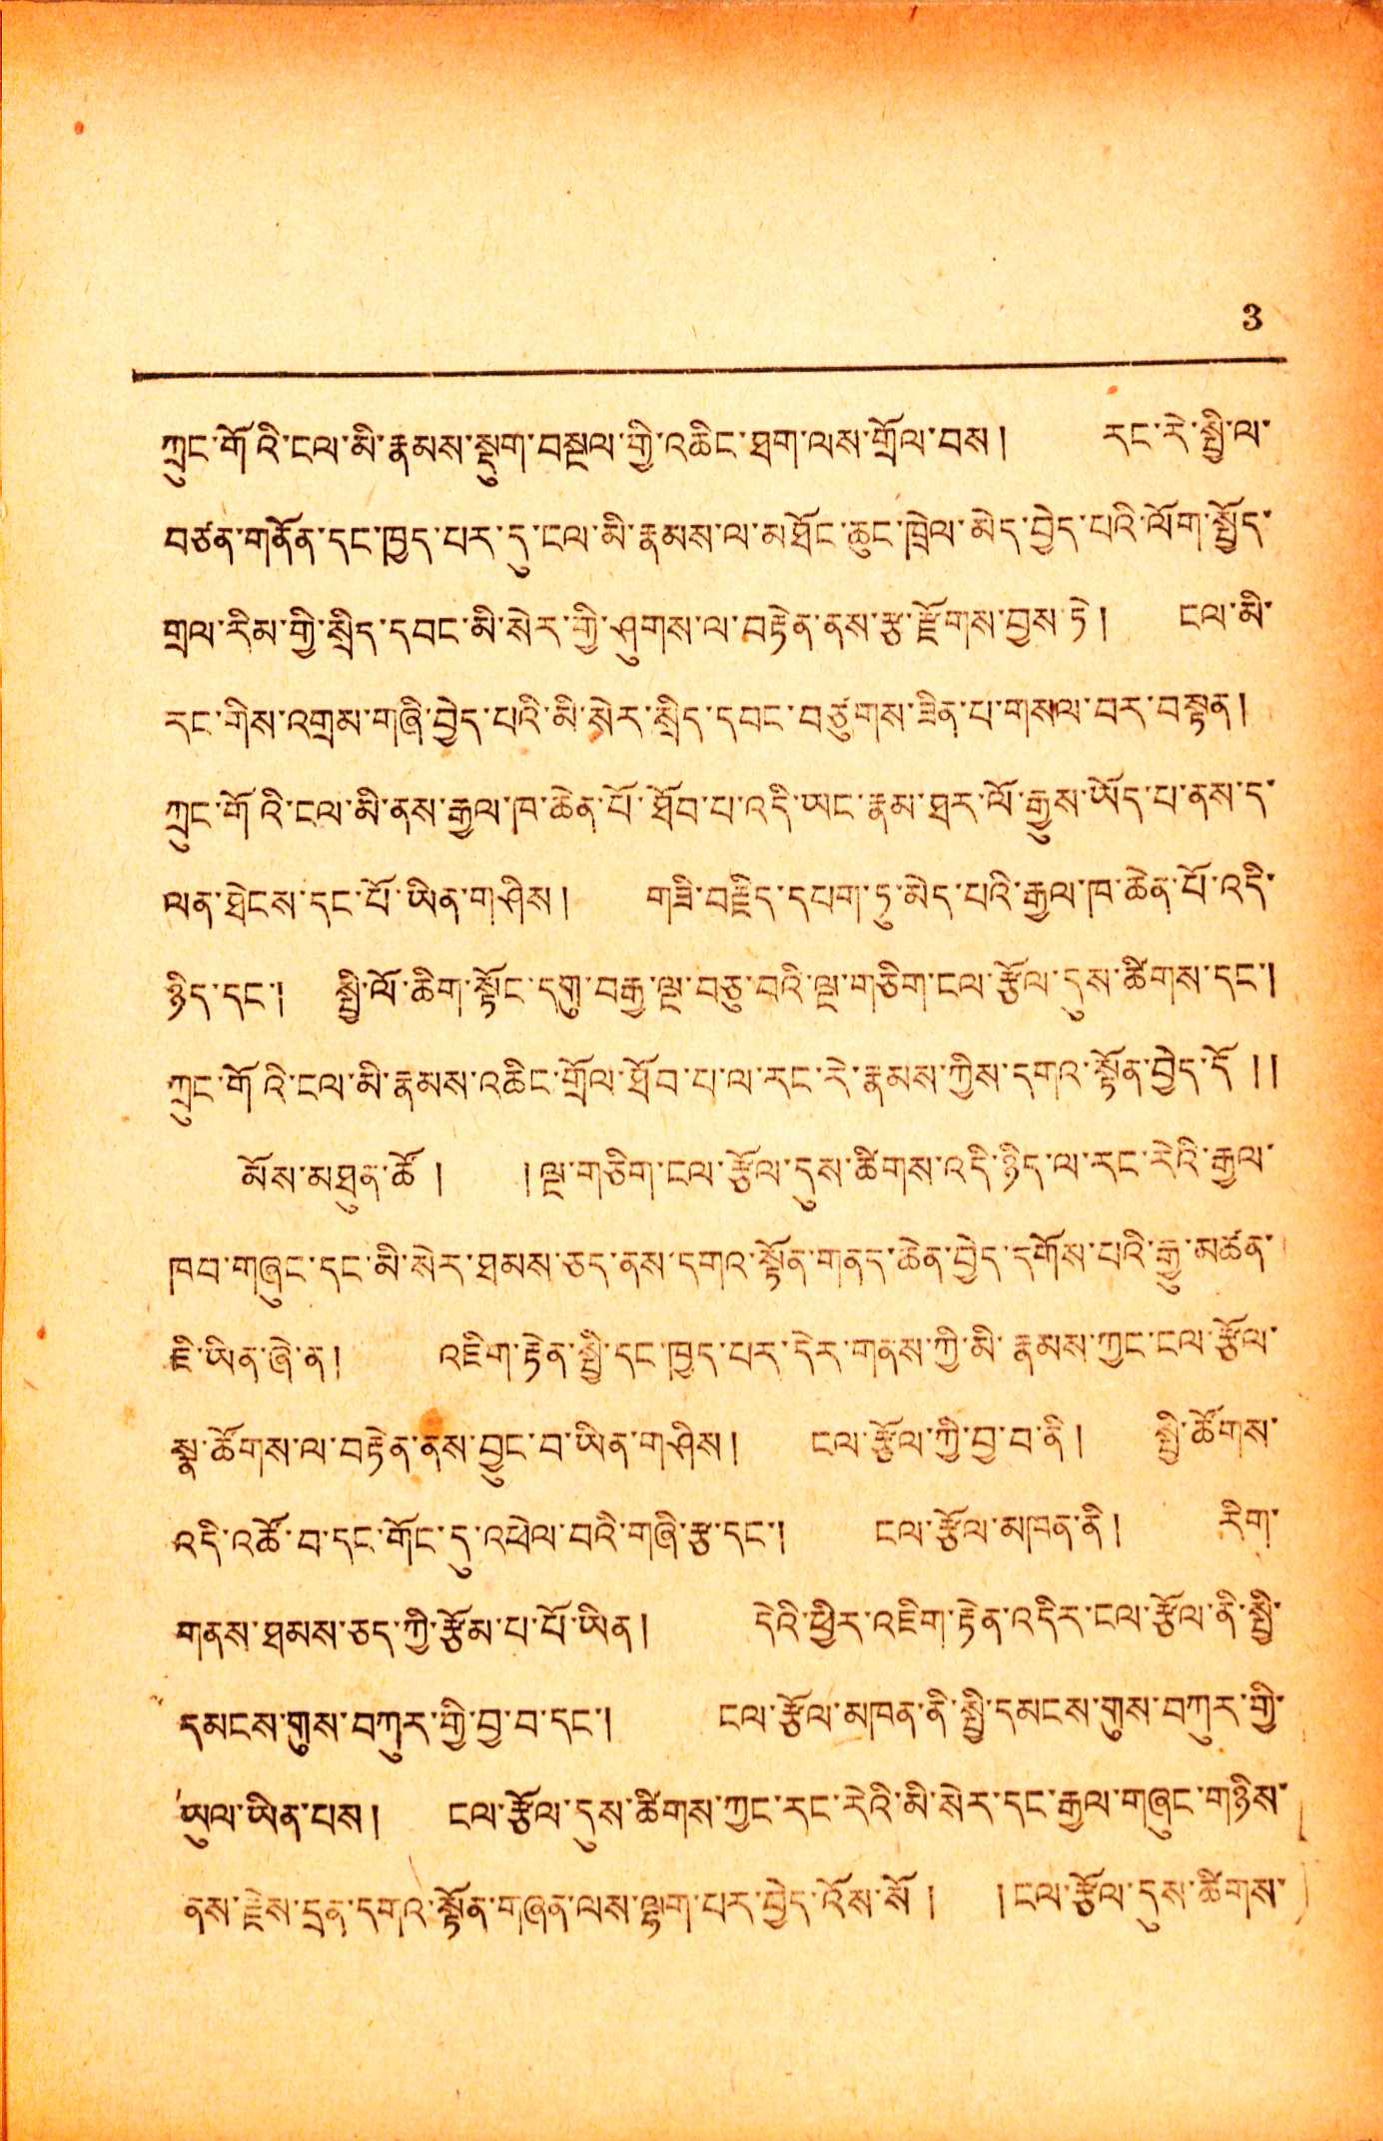3
ཀྲུང་གོའི་ངལ་མི་རྣམས་སྡུག་བསྔལ་གྱི་འཆིང་ཐག་ལས་གྲོལ་བས། རང་རེ་སྤྱི་ལ་
བཙན་གནོན་དང་ཁྱད་པར་དུ་ངལ་མི་རྣམས་ལ་མཐོང་ཆུང་ཁྲེལ་མེད་བྱེད་པའི་ལོག་སྤྱོད་
གྲལ་རིམ་གྱི་སྲིད་དབང་མི་སེར་གྱི་ཤུགས་ལ་བརྟེན་ནས་རྩ་རྫོགས་བྱས་ཏེ། ངལ་མི་
རང་གིས་འགྲམ་གཞི་བྱེད་པའི་མི་སེར་སྲིད་དབང་བཙུགས་ཟིན་པ་གསལ་བར་བསྟན།
ཀྲུང་གོའི་ངལ་མི་ནས་རྒྱལ་ཁ་ཆེན་པོ་ཐོབ་པ་འདི་ཡང་རྣམས་ཐར་ལོ་རྒྱུས་ཡོད་པ་ནས་ད་
ལན་ཐེངས་དང་པོ་ཡིན་གཤིས། གཟི་བརྗིད་དཔག་ཏུ་མེད་པའི་རྒྱལ་ཁ་ཆེན་པོ་འདི་
ཉིད་དང་། སྤྱི་ལོ་ཆིག་སྟོང་དགུ་བརྒྱ་ལྔ་བཅུ་བའི་ལྔ་གཅིག་ངལ་རྩོལ་དུས་ཚིགས་དང་།
ཀྲུང་གོའི་ངལ་མི་རྣམས་འཆིང་གྲོལ་ཐོབ་པ་ལ་རང་དེ་རྣམས་ཀྱིས་དགའ་སྟོན་བྱེད་དོ །།
མོས་མཐུན་ཚོ ། །ལྔ་གཅིག་ངལ་རྩོལ་དུས་ཚིགས་འདི་ཉིད་ལ་རང་རེའི་རྒྱལ་
ཁབ་གཞུང་དང་མི་སེར་ཐམས་ཅད་ནས་དགའ་སྟོན་གནད་ཆེན་བྱེད་དགོས་པའི་རྒྱུ་མཚན་
ཇི་ཡིན་ཞེ་ན། འཇིག་རྟེན་སྤྱི་དང་ཁྱད་པར་དེར་གནས་ཀྱི་མི་རྣམས་ཀྱང་ངལ་རྩོལ་
སྣ་ཚོགས་ལ་བརྟེན་ནས་བྱུང་བ་ཡིན་གཤིས། ངལ་རྩོལ་ཀྱི་བྱ་བ་ནི། སྤྱི་ཚོགས་
འདི་འཚོ་བ་དང་གོང་དུ་འཕེལ་བའི་གཞི་རྩ་དང་། ངལ་རྩོལ་མཁན་ནི། རིག་
གནས་ཐམས་ཅད་ཀྱི་རྩོམ་པ་པོ་ཡིན། དེའི་ཕྱིར་འཇིག་རྟེན་འདིར་ངལ་རྩོལ་ནི་སྤྱི་
དམངས་གུས་བཀུར་གྱི་བྱ་བ་དང་། ངལ་རྩོལ་མཁན་ནི་སྤྱི་དམངས་གུས་བཀུར་གྱི་
ཡུལ་མིན་པས། ངལ་རྩོལ་དུས་ཚིགས་ཀྱང་རང་རེའི་མི་སེར་དང་རྒྱལ་གཞུང་གཉིས་
ནས་རྗེས་དྲན་དགའ་སྟོན་གཞན་ལས་ལྷག་པར་བྱེད་འོས་སོ། །ངལ་རྩོལ་དུས་ཚིགས་
